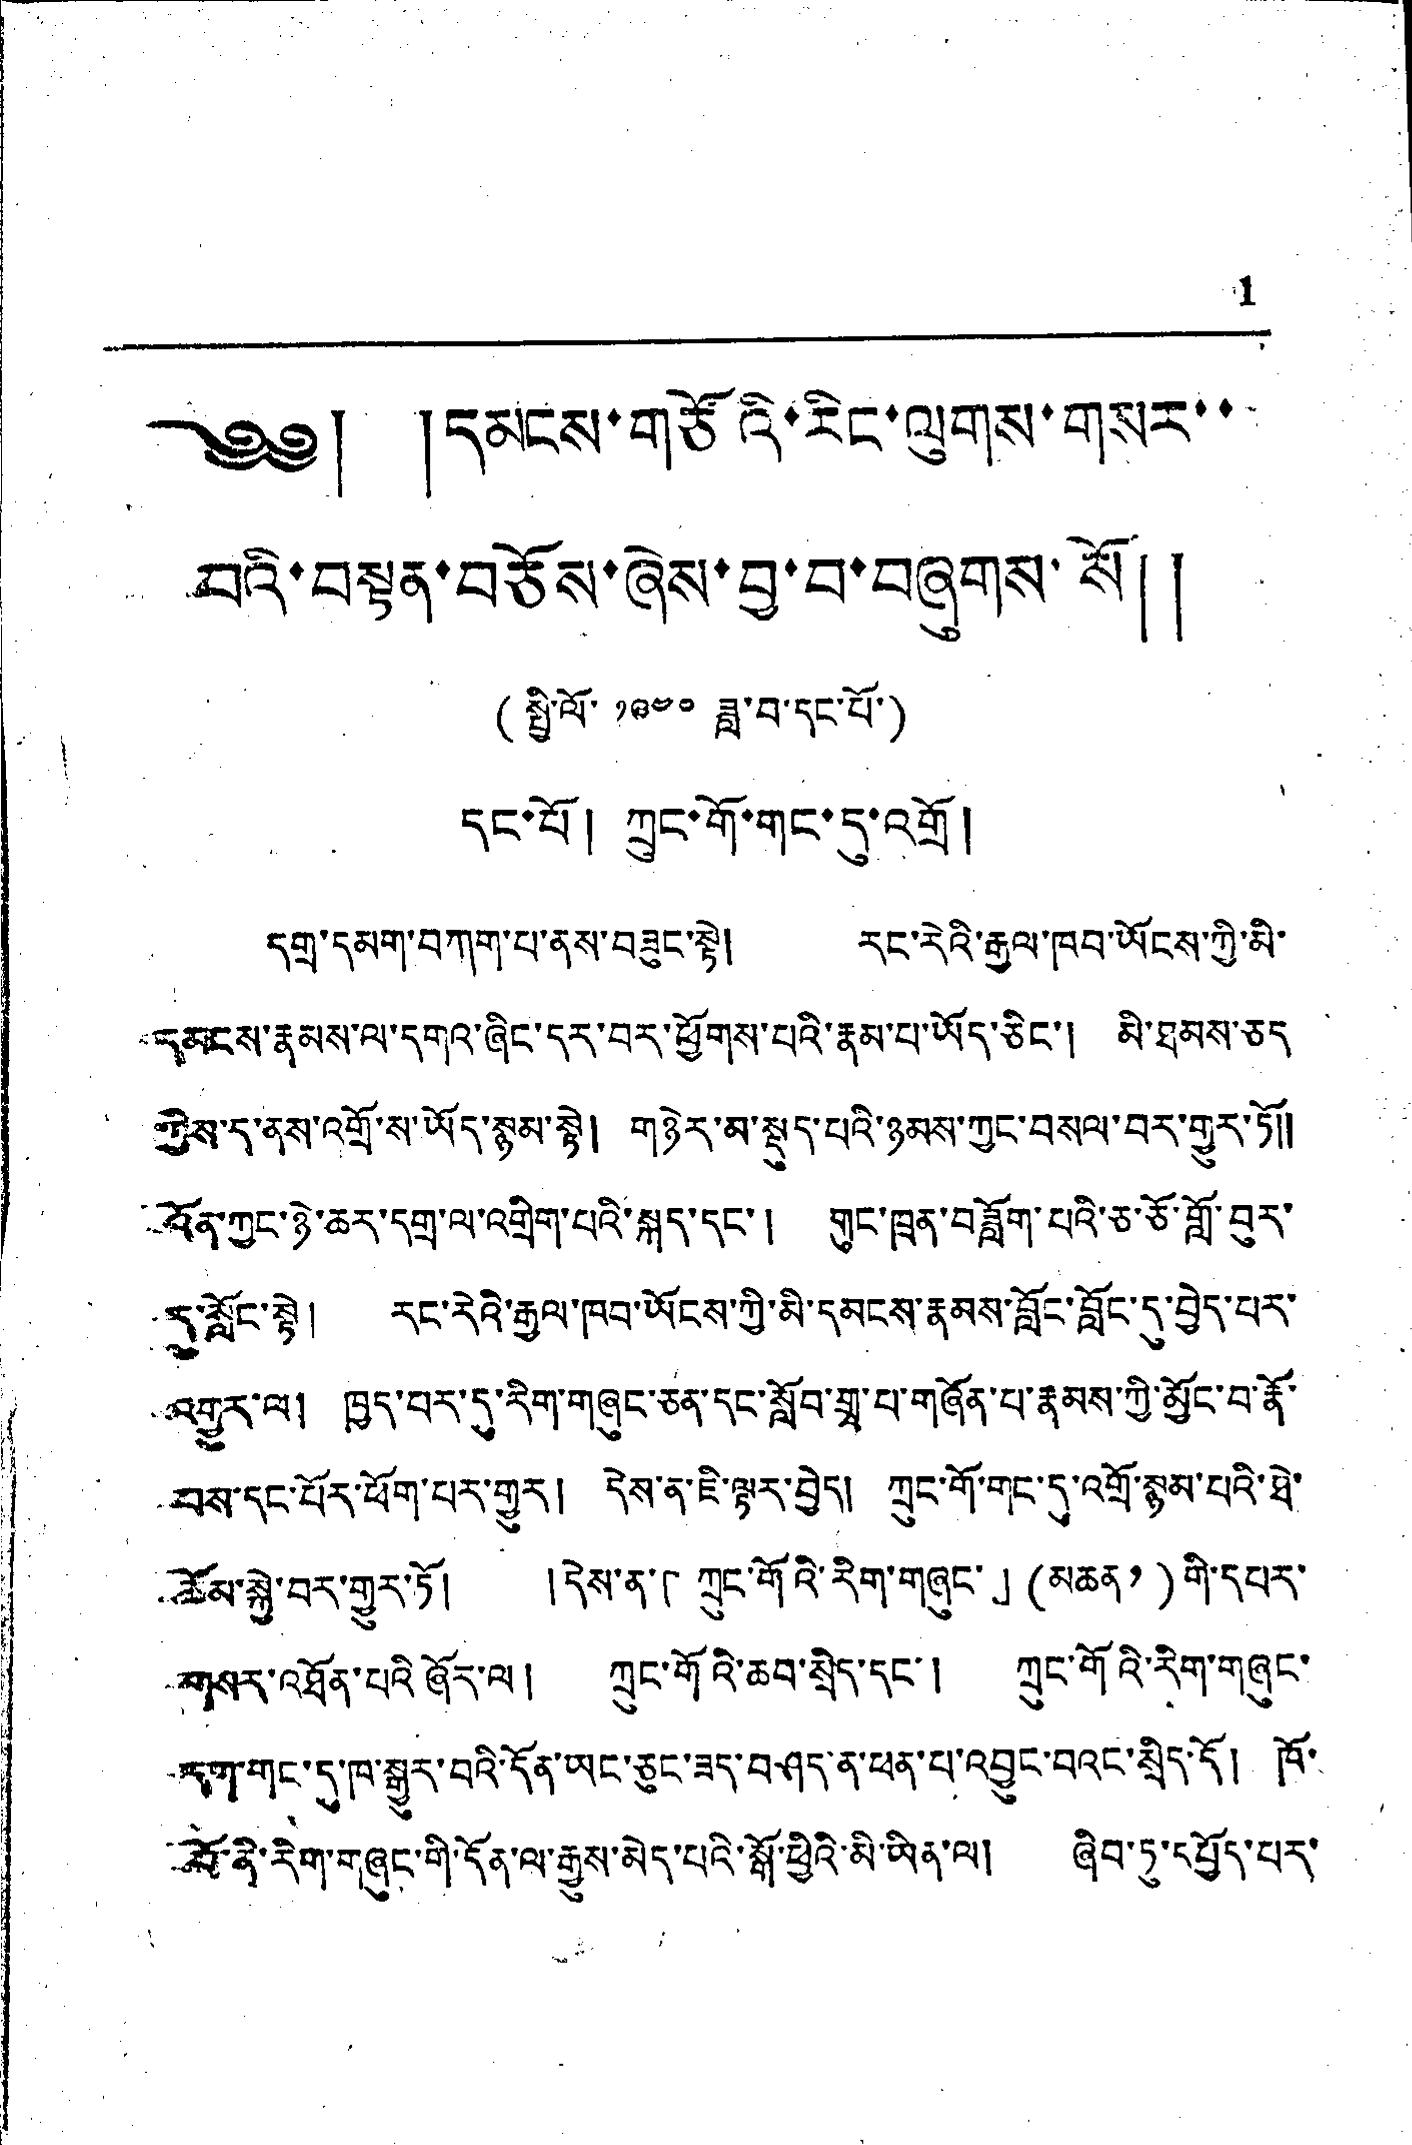1
༄༅། །དམངས་གཙོའི་རིང་ལུགས་གསར་་
བའི་བསྟན་བཅོས་ཞེས་བྱ་བ་བཞུགས་སོ། །
(སྤྱི་ལོ་ ༡༩༤༠ ཟླ་བ་དང་པོ་)
དང་པོ། ཀྲུང་གོ་གང་དུ་འགྲོ།
དགྲ་དམག་བཀག་པ་ནས་བཟུང་སྟེ། རང་རེའི་རྒྱལ་ཁབ་ཡོངས་ཀྱི་མི་
དནངས་རྣམས་ལ་དགའ་ཞིང་དར་བར་ཕྱོགས་པའི་རྣམ་པ་ཡོད་ཅིང་། མི་ཐམས་ཅད
ཀྱིས་ད་ནས་འགྲོ་ས་ཡོད་སྙམ་སྟེ། གཉེར་མ་སྡུད་པའི་ཉམས་ཀྱང་བསལ་བར་གྱུར་ཏོ༎
འོན་ཀྱང་ཉེ་ཆར་དགྲ་ལ་འགྲིག་པའི་སྐད་དང་། གུང་ཁྲན་བཟློག་པའི་ཅ་ཅོ་གློ་བུར་
དུ་སློང་སྟེ། རང་རེའི་རྒྱལ་ཁབ་ཡོངས་ཀྱི་མི་དམངས་རྣམས་བློང་བློང་དུ་བྱེད་པར་
འགྱུར་ལ། ཁྱད་བར་དུ་རིག་གཞུང་ཅན་དང་སློབ་གྲྭ་པ་གཞོན་པ་རྣམས་ཀྱི་མྱོང་བ་རྣོ་
བས་དང་པོར་ཕོག་པར་གྱུར། དེས་ན་ཇི་ལྟར་བྱེད། ཀྲུང་གོ་གང་དུ་འགྲོ་སྙམ་པའི་ཐེ་
ཚོམ་སྐྱེ་བར་གྱུར་ཏོ། །དེས་ན་「ཀྲུང་གོའི་རིག་གཞུང་」(མཆན ༡)གི་དཔར་
གསར་འཐོན་པའི་ཞོར་ལ ། ཀྲུང་གོའི་ཆབ་སྲིད་དང་། ཀྲུང་གོའི་རིག་གཞུང་
དག་གང་དུ་ཁ་སྒྱུར་བའི་དོན་ཡང་ཅུང་ཟད་བཤད་ན་ཕན་པ་འབྱུང་བའང་སྲིད་དོ། ཁོ་
བོ་ནི་རིག་གཞུང་གི་དོན་ལ་རྒྱུས་མེད་པའི་སྒྲོ་ཕྱིའི་མི་ཡིན་ལ། ཞིབ་ཏུ་དཔྱོད་པར་
